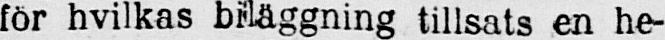för hvilkas biläggning tillsats en he-
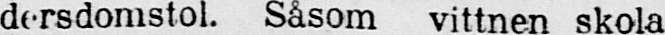dersdomstol. Såsom vittnen skola
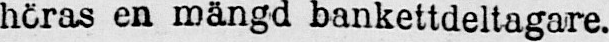höras en mängd bankettdeltagare.
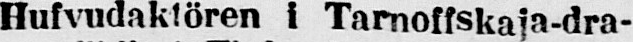Hufvudaktören i Tarnoffskaja-dra-
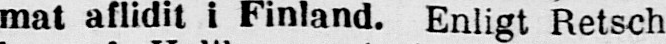mat aflidit i Finland. Enligt Retsch
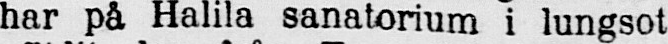har på Halila sanatorium i lungsot
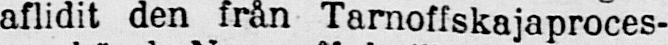aflidit den från Tarnoffskajaproces-
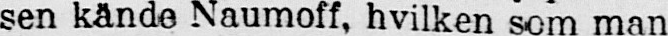sen kände Naumoff, hvilken som man
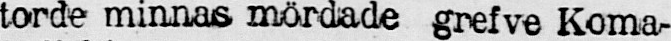torde minnas mördade grefve Koma-
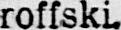roffski.
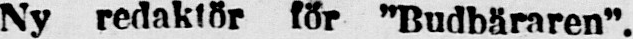Ny redaktör för "Budbäraren”.
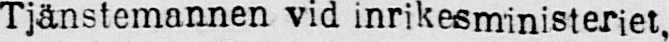Tjänstemannen vid inrikesministeriet,
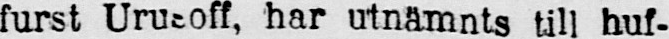furst Urutoff, har utnämnts till huf-
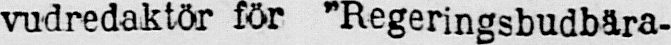vudredaktör för ”Regeringsbudbära-
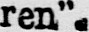ren”.
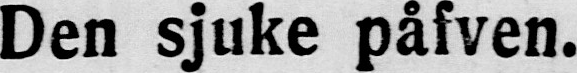Den sjuke påfven.
